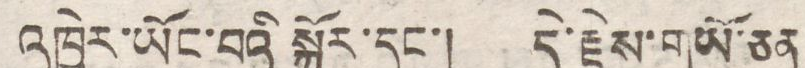འཁྱེར་ཡོང་བའི སྐོར་དང་། དེ་རྗེས་གཡོ་ཅན
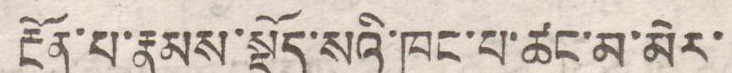རྔོན་པ་རྣམས་སྡོད་སའི་ཁང་པ་ཚང་མ་མེར་
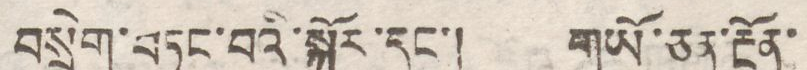བསྲེག་བཏང་བའི་སྐོར་དང་། གཡོ་ཅན་རྔོན་
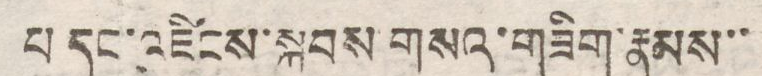པ དང་འཛིངས་སྐབས གསའ་གཟིག་རྣམས་་
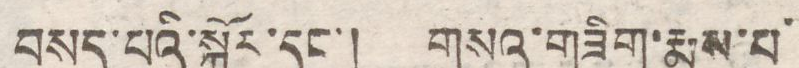བསད་པའི་སྐོར་དང་། གསའ་གཟིག་རྨས་པ་
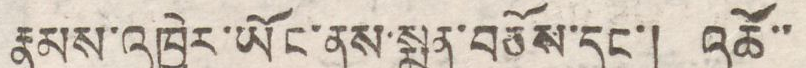རྣམས་འཁྱེར་ཡོང་ནས་སྨན་བཅོས་དང་། འཚོ་་
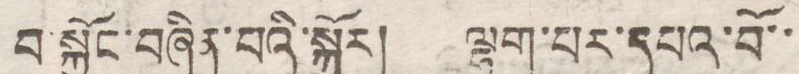བ་སྐྱོང་བཞིན་པའི་སྐོར། ལྷག་པར་དཔའ་བོ་་
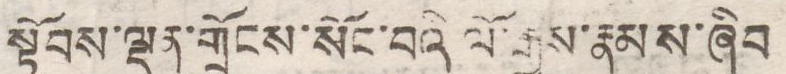སྟོབས་ལྡན་གྲོངས་སོང་བའི ལོ་རྒྱུས་རྣམས་ཞིབ
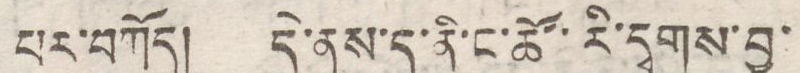པར་བཀོད། དེ་ནས་ད་ནི་ང་ཚོ་རི་དྭགས་བྱ་
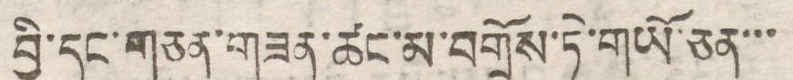བྱི་དང་གཅན་གཟན་ཚང་མ་བགྲོས་ཏེ་གཡོ་ཅན་་་
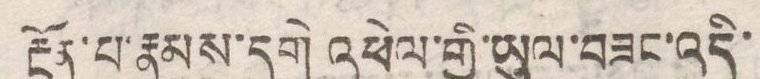རྔོན་པ་རྣམས་དགེ འཕེལ་གྱི་ཡུལ་བཟང་འདི་
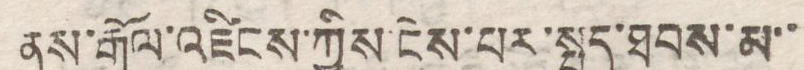ནས་རྒོལ་འཛིངས་ཀྱིས་ངེས་པར་སྤུད་ཐབས་མ་་
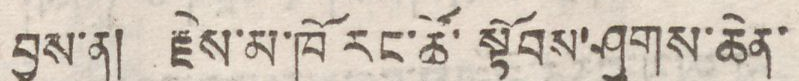བྱས་ན། རྗེས་མ་ཁོ རང་ཚོ་སྟོབས་ཤུགས་ཆེན་
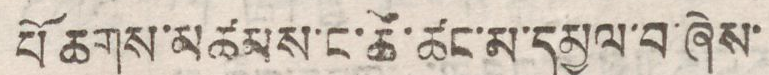པོ ཆགས་མཚམས་ང་ཚོ་ཚང་མ་དམྱལ་བ་ཞེས་
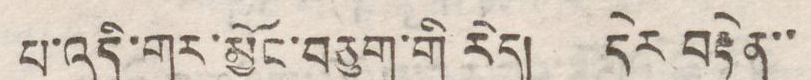པ་འདི་གར་མྱོང་བཅུག་གི་རེད། དེར བརྟེན་་
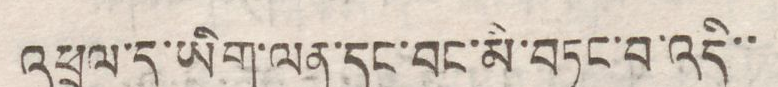འཕྲལ་དུ་ཡིག་ལན་དང་བང་མི་བཏང་བ་འདི་་
